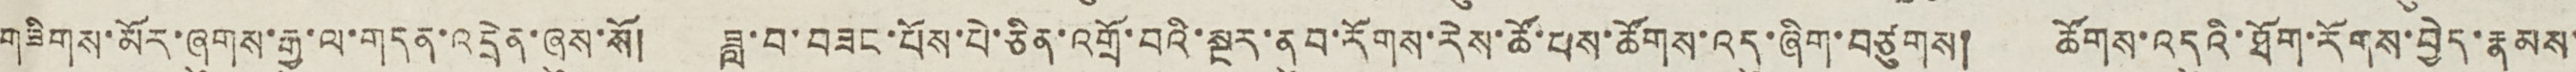གཟིགས་མོར་ཞུགས་རྒྱུ་ལ་གདན་འདྲེན་ཞུས་སོ། ཟླ་བ་བཟང་པོས་པེ་ཅིན་འགྲོ་བའི་སྔར་ནུབ་རོགས་རེས་ཚོ་པས་ཚོགས་འདུ་ཞིག་བཙུགས། ཚོགས་འདུའི་ཐོག་རོགས་བྱེད་རྣམས་
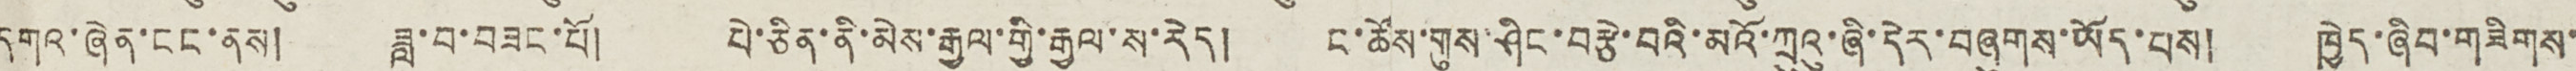དགའ་ཞེན་ངང་ནས། ཟླ་བ་བཟང་པོ། པེ་ཅིན་ནི་མེས་རྒྱལ་གྱི་རྒྱལ་ས་རེད། ང་ཚོས་གུས་ཤིང་བརྩེ་བའི་མའོ་ཀྲུའུ་ཞི་དེར་བཞུགས་ཡོད་པས། ཁྱེད་ཞིབ་གཟིགས་
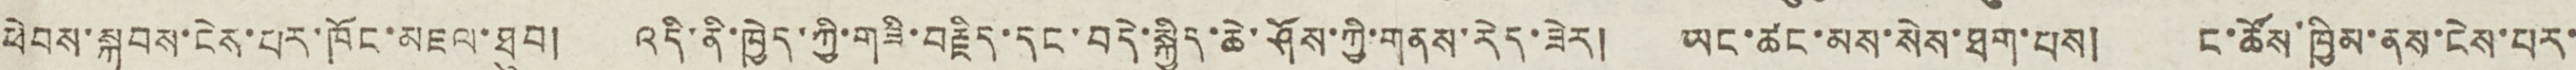ཕེབས་སྐབས་ངེས་པར་ཁོང་མཇལ་ཐུབ། འདི་ནི་ཁྱེད་ཀྱི་གཟི་བརྗིད་དང་བདེ་སྐྱིད་ཆེ་ཤོས་ཀྱི་གནས་རེད་ཟེར། ཡང་ཚང་མས་སེས་ཐག་པས། ང་ཚོས་ཁྱིམ་ནས་ངེས་པར་
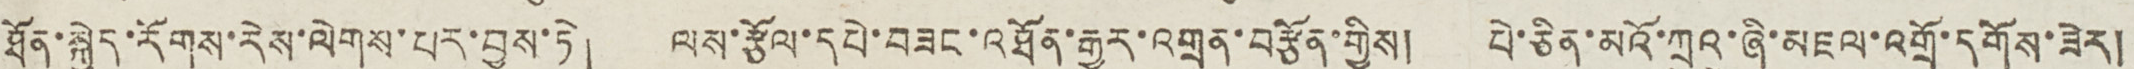ཐོན་སྐྱེད་རོགས་རེས་ལེགས་པར་བྱས་ཏེ། ལས་རྩོལ་དཔེ་བཟང་འཐོན་རྒྱུར་འགྲན་བརྩོན་གྱིས། པེ་ཅིན་མའོ་ཀྲུའུ་ཞི་མཇལ་འགྲོ་དགོས་ཟེར།
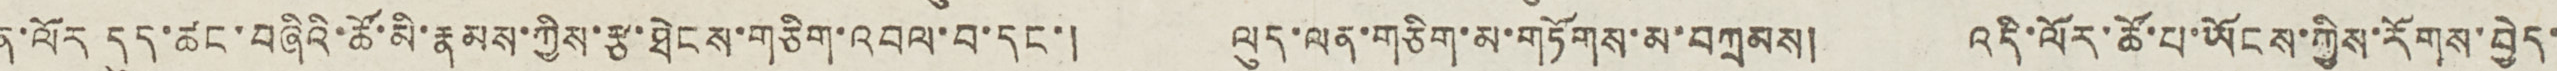ན་ལོར དུད་ཚང་བཞིའི་ཚོ་མི་རྣམས་ཀྱིས་རྩ་ཐེངས་གཅིག་འབལ་བ་དང་། ལུད་ལན་གཅིག་མ་གཏོགས་མ་བཀྲམས། འདི་ལོར་ཚོ་པ་ཡོངས་ཀྱིས་རོགས་བྱེད་
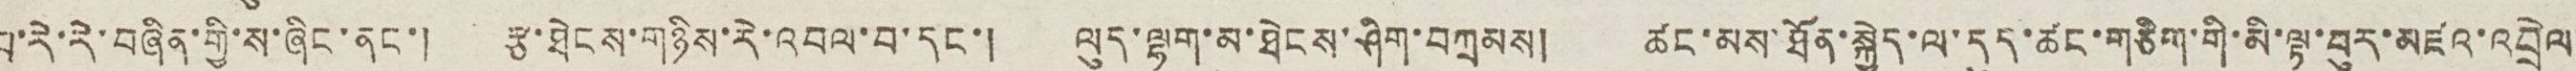པ་རེ་རེ་བཞིན་གྱི་ས་ཞིང་ནང་། རྩ་ཐེངས་གཉིས་རེ་འབལ་བ་དང་། ལུད་ལྷག་མ་ཐེངས་ཤིག་བཀྲམས། ཚང་མས་ཐོན་སྐྱེད་ལ་དུད་ཚང་གཅིག་གི་མི་ལྟ་བུར་མཛའ་འབྲེལ་
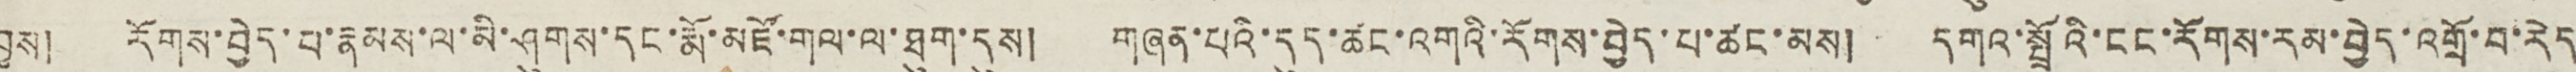བྱས། རོགས་བྱེད་པ་རྣམས་ལ་མི་ཤུགས་དང་རྨོ་མཛོ་གལ་ལ་ཐུག་དུས། གཞན་པའི་དུད་ཚང་འགའི་རོགས་བྱེད་པ་ཚང་མས། དགའ་སྤྲོའི་ངང་རོགས་རམ་བྱེད་འགྲོ་བ་རེད
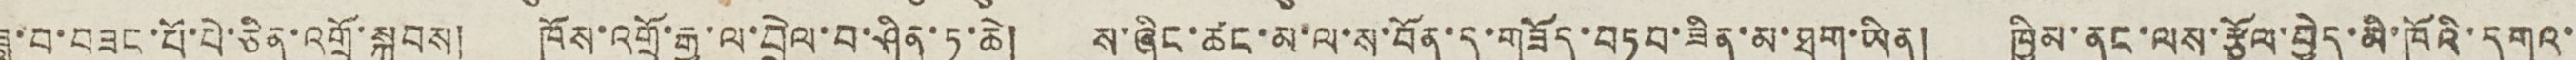ཟླ་བ་བཟང་པོ་པེ་ཅིན་འགྲོ་སྐབས། ཁོས་འགྲོ་རྒྱུ་ལ་བྲེལ་བ་ཤིན་ཏུ་ཆེ། ས་ཞིང་ཚང་མ་ལ་ས་བོན་ད་གཟོད་བཏབ་ཟིན་མ་ཐག་ཡིན། ཁྱིམ་ནང་ལས་རྩོལ་བྱེད་མི་ཁོའི་དགའ་
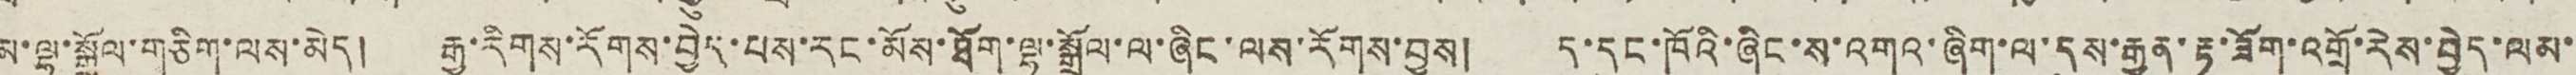མ་ལྷ་སྒྲོལ་གཅིག་ལས་མེད། རྒྱ་རིགས་རོགས་བྱེད་པས་རང་མོས་ཐོག་ལྷ་སྒྲོལ་ལ་ཞིང་ལས་རོགས་བྱས། ད་དུང་ཁོའི་ཞིང་ས་འགའ་ཞིག་ལ་དུས་རྒྱུན་རྟ་ཟོག་འགྲོ་རེས་བྱེད་ལམ་
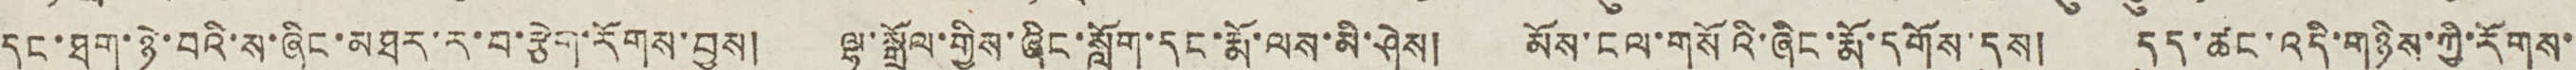དང་ཐག་ཉེ་བའི་ས་ཞིང་མཐར་ར་བ་རྩེག་རོགས་བྱས། ལྷ་སྒྲོལ་གྱིས་ཞིང་སློག་དང་རྨོ་ལས་མི་ཤེས། མོས་ངལ་གསོའི་ཞིང་རྨོ་དགོས་དུས། དུད་ཚང་འདི་གཉིས་ཀྱི་རོགས་
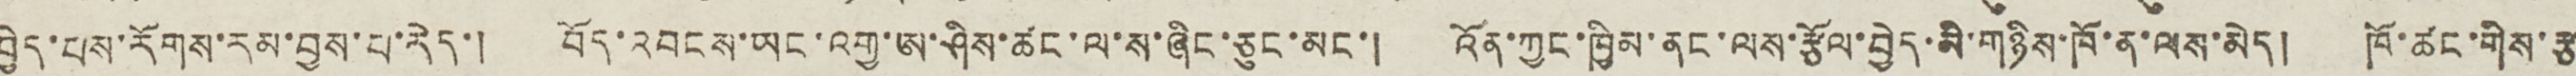བྱེད་པས་རོགས་རམ་བྱས་པ་རེད་། བོད་འབངས་ཡང་འགྱ་ཨ་ཤིས་ཚང་ལ་ས་ཞིང་ཅུང་མང་། འོན་ཀྱང་ཁྱིམ་ནང་ལས་རྩོལ་བྱེད་མི་གཉིས་ཁོ་ན་ལས་མེད། ཁོ་ཚང་གིས་རྩ
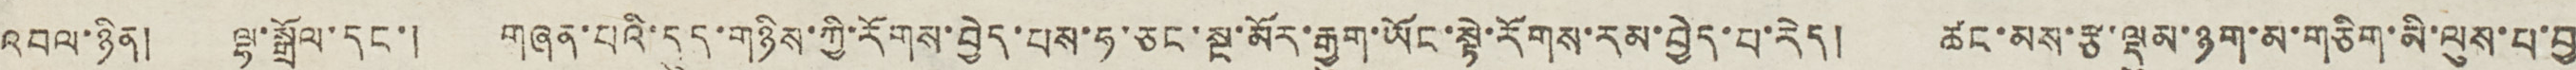འབལ་ཉིན། ལྷ་སྒྲོལ་དང་། གཞན་པའི་དུད་གཉིས་ཀྱི་རོགས་བྱེད་པས་ཧ་ཅང་སྔ་མོར་རྒྱུག་ཡོང་སྟེ་རོགས་རམ་བྱེད་པ་རེད། ཚང་མས་རྩ་ལྡུམ་ཉག་མ་གཅིག་མི་ལུས་པ་བྱ
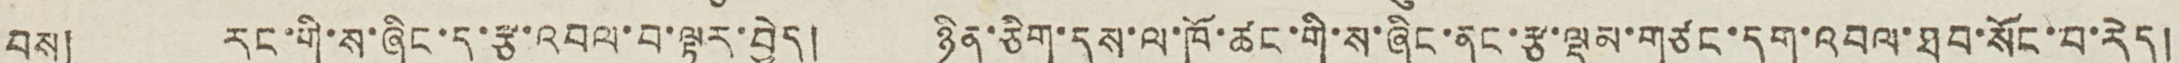བས། རང་གི་ས་ཞིང་དུ་རྩ་འབལ་བ་ལྟར་བྱེད། ཉིན་ཅིག་དུས་ལ་ཁོ་ཚང་གི་ས་ཞིང་ནང་རྩ་ལྡུམ་གཙང་དག་འབལ་ཐུབ་སོང་བ་རེད།
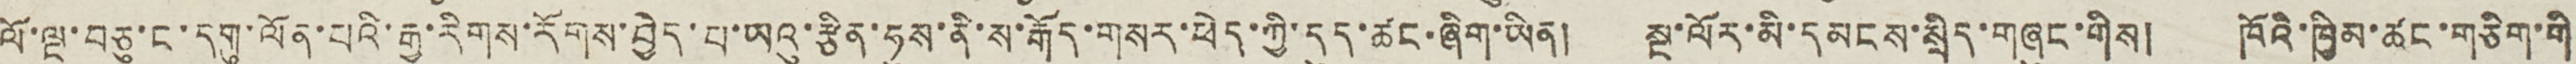ལོ་ལྔ་བཅུ་ང་དགུ་ལོན་པའི་རྒྱ་རིགས་རོགས་བྱེད་པ་ཡའུ་རྩིན་ཧུས་ནི་ས་རྒོད་གསར་ཕེད་ཀྱི་དུད་ཚང་ཞིག་ཡིན། སྔ་ལོར་མི་དམངས་སྲིད་གཞུང་གིས། ཁོའི་ཁྱིམ་ཚང་གཅིག་གི
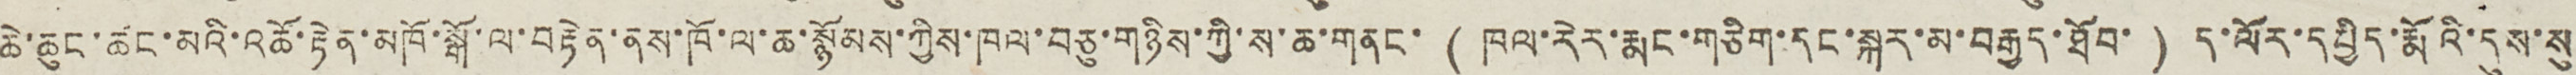ཆེ་ཆུང་ཚང་མའི་འཚོ་རྟེན་མཁོ་སྒོ་ལ་བརྟེན་ནས་ཁོ་ལ་ཆ་སྙོམས་ཀྱིས་ཁལ་བཅུ་གཉིས་ཀྱི་ས་ཆ་གནང་ ( ཁལ་རེར་རྨང་གཅིག་དང་སྐར་མ་བརྒྱད་ཐོབ་ ) ད་ལོར་དཔྱིད་རྨོའི་དུས་སུ
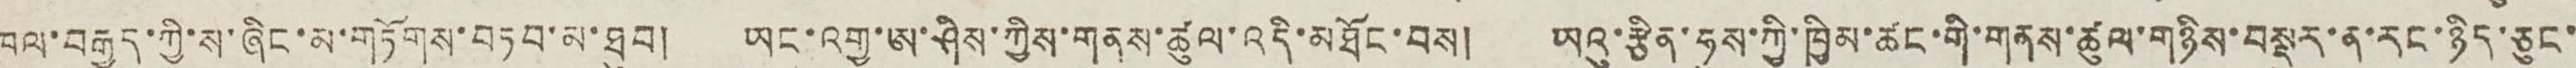ཁལ་བརྒྱད་ཀྱི་ས་ཞིང་མ་གཏོགས་བཏབ་མ་ཐུབ། ཡང་འགྱ་ཨ་ཤིས་ཀྱིས་གནས་ཚུལ་འདི་མཐོང་བས། ཡའུ་རྩིན་ཧུས་ཀྱི་ཁྱིམ་ཚང་གི་གནས་ཚུལ་གཉིས་བསྡུར་ན་རང་ཉིད་ཅུང་
